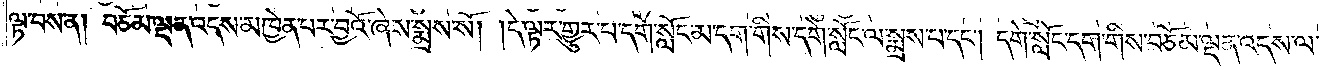ལྟ་བས་ན། བཅོམ་ལྡན་འདས་མཁྱེན་པར་བྱའོ་ཞེས་སྨྲས་སོ། །དེ་ལྟར་གྱུར་པ་དགེ་སློང་མ་དག་གིས་དགེ་སློང་ལ་སྨྲས་པ་དང༌། དགེ་སློང་དག་གིས་བཅོམ་ལྡན་འདས་ལ་
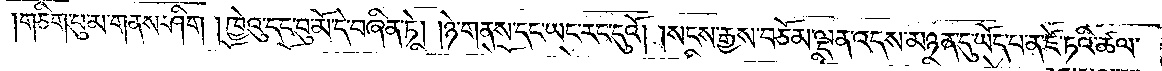།གཅིག་པུ་མ་གནས་ཤིག །ཁྱེའུ་དང་བུ་མོ་དེ་བཞིན་ཏེ། །ཉེ་གནས་དང་ཡང་རང་དུའོ། །སངས་རྒྱས་བཅོམ་ལྡན་འདས་མཉན་དུ་ཡོད་པ་ན་ཛེ་ཏའི་ཚལ་
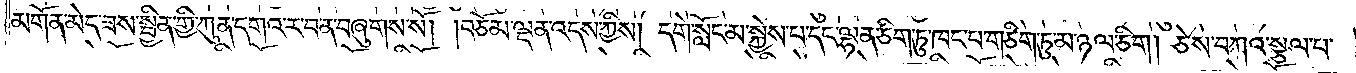མགོན་མེད་ཟས་སྦྱིན་གྱི་ཀུན་དགའ་ར་བ་ན་བཞུགས་སོ། །བཅོམ་ལྡན་འདས་ཀྱིས། དགེ་སློང་མ་སྐྱེས་པ་དང་ལྷན་ཅིག་ཏུ་ཁང་པ་གཅིག་ཏུ་མ་ཉལ་ཅིག། ཅེས་བཀའ་སྩལ་པ་
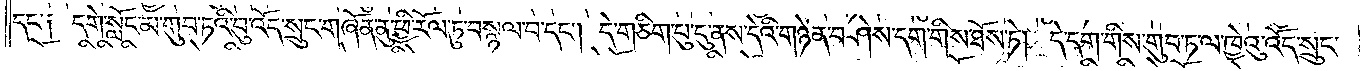དང༌། དགེ་སློང་མ་གུབ་ཏའི་བུ་འོད་སྲུང་གཞོན་ནུ་ཕྱི་རོལ་ཏུ་བསྙལ་བ་དང༌། དེ་གཅིག་པུ་ངུ་ནས་དེའི་གཉེན་བཤེས་དག་གིས་ཐོས་ཏེ། དེ་དག་གིས་གུབ་ཏ་ལ་ཁྱེའུ་འོད་སྲུང་
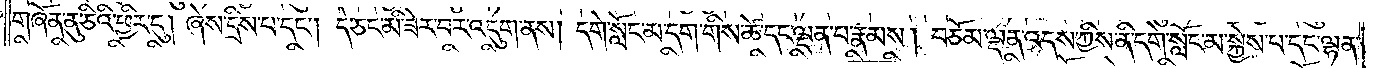གཞོན་ནུ་ཅིའི་ཕྱིར་དུ། ཞེས་དྲིས་པ་དང༌། དེ་ཅང་མི་ཟེར་བར་འདུག་ནས། དགེ་སློང་མ་དག་གིས་ཚེ་དང་ལྡན་པ་རྣམས། བཅོམ་ལྡན་འདས་ཀྱིས་ནི་དགེ་སློང་མ་སྐྱེས་པ་དང་ལྷན་
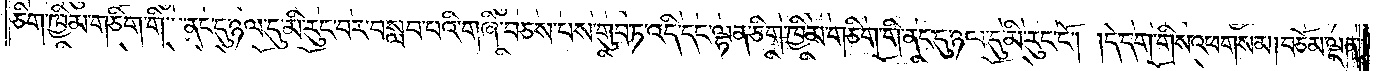ཅིག་ཁྱིམ་གཅིག་གི་ནང་དུ་ཉལ་དུ་མི་རུང་བར་བསླབ་པའི་གཞི་བཅས་པས་གུབ་ཏ་འདི་དང་ལྷན་ཅིག་ཁྱིམ་གཅིག་གི་ནང་དུ་ཉལ་དུ་མི་རུང་ངོ༌། །དེ་དག་གིས་འཕགས་མ། བཅོམ་ལྡན་
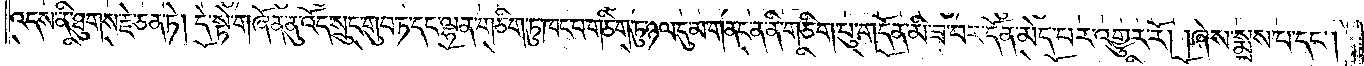འདས་ནི་ཐུགས་རྗེ་ཅན་ཏེ། དེ་སྟེ་གཞོན་ནུ་འོད་སྲུང་གུབ་ཏ་དང་ལྷན་ཅིག་ཏུ་ཁང་པ་གཅིག་ཏུ་ཉལ་དུ་མ་གནང་ན་ནི་གཅིག་པུ་གདོན་མི་ཟ་བར་དོན་མེད་པར་འགྱུར་རོ། །ཞེས་སྨྲས་པ་དང༌།
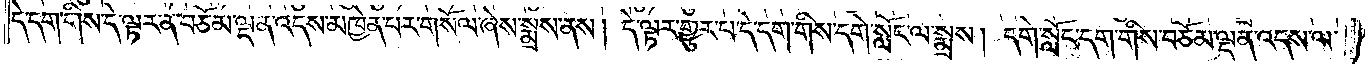དེ་དག་གིས་དེ་ལྟར་ན་བཅོམ་ལྡན་འདས་མཁྱེན་པར་གསོལ་ཞེས་སྨྲས་ནས། དེ་ལྟར་གྱུར་པ་དེ་དག་གིས་དགེ་སློང་ལ་སྨྲས། དགེ་སློང་དག་གིས་བཅོམ་ལྡན་འདས་ལ་
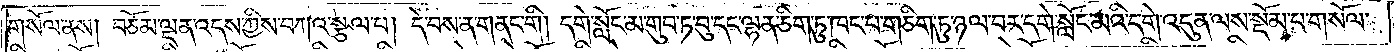གསོལ་ནས། བཅོམ་ལྡན་འདས་ཀྱིས་བཀའ་སྩལ་པ། དེ་བས་ན་གནང་གི། དགེ་སློང་མ་གུབ་ཏ་བུ་དང་ལྷན་ཅིག་ཏུ་ཁང་པ་གཅིག་ཏུ་ཉལ་བར་དགེ་སློང་མའི་དགེ་འདུན་ལས་སྡོམ་པ་གསོལ་
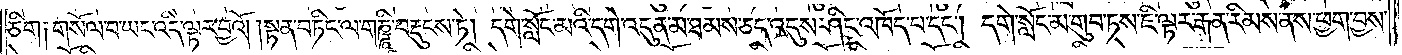ཅིག །གསོལ་བ་ཡང་འདི་ལྟར་བྱའོ། །སྟན་བཏིང་ལ་གཎྜའི་བརྡུངས་ཏེ། དགེ་སློང་མའི་དགེ་འདུན་མ་ཐམས་ཅད་འདུས་ཤིང་འཁོད་པ་དང༌། དགེ་སློང་མ་གུབ་ཏས་ཇི་ལྟར་རྒན་རིམས་ནས་ཕྱག་བྱས་
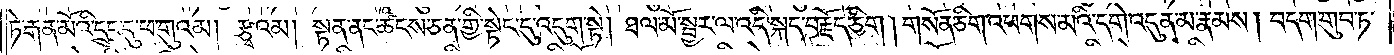ཏེ་རྒན་མོའི་དྲུང་དུ་ཕ་གུའམ། རྩྭའམ། སྟན་ནང་ཚངས་ཅན་གྱི་སྟེན་དུ་འདུག་སྟེ། ཐལ་མོ་སྦྱར་ལ་འདི་སྐད་བརྗོད་ཅིག། གསོན་ཅིག་འཕགས་མའི་དགེ་འདུན་མ་རྣམས། བདག་གུབ་ཏ་
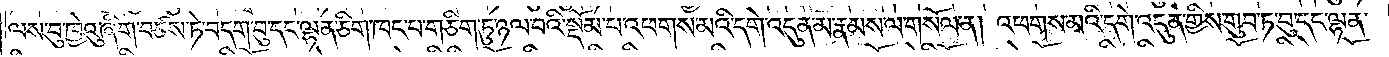ལས་བུ་ཁྱེའུ་ཞིག་བཙས་ཏེ་བདག་བུ་དང་ལྷན་ཅིག་ཁང་པ་གཅིག་ཏུ་ཉལ་བའི་སྡོམ་པ་འཕགས་མའི་དགེ་འདུན་མ་རྣམས་ལ་གསོལ་ན། འཕགས་མའི་དགེ་འདུན་གྱིས་གུབ་ཏ་བུ་དང་ལྷན་
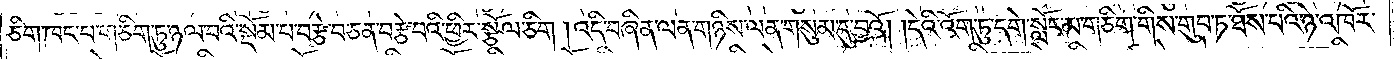ཅིག་ཁང་པ་གཅིག་ཏུ་ཉལ་བའི་སྡོམ་པ་བརྩེ་བ་ཅན་བརྩེ་བའི་ཕྱིར་སྩོལ་ཅིག །འདི་བཞིན་ལན་གཉིས་ལན་གསུམ་དུ་བྱའོ། །དེའི་འོག་ཏུ་དགེ་སློང་མ་གཅིག་གིས་གུབ་ཏ་ཐོས་པའི་ཉེ་འཁོར་
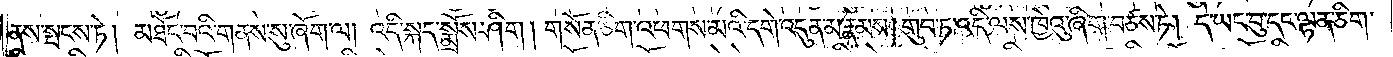ནས་སྤངས་ཏེ། མཐོང་བའི་གནས་སུ་ཞོག་ལ། འདི་སྐད་སྨྲོས་ཤིག །གསོན་ཅིག་འཕགས་མའི་དགེ་འདུན་མ་རྣམས། གུབ་ཏ་འདི་ལས་ཁྱེའུ་ཞིག་བཙས་ཏེ། དེ་ཡང་བུ་དང་ལྷན་ཅིག་
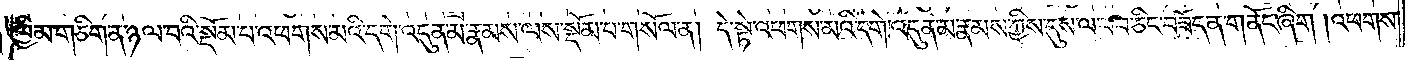ཁྱིམ་གཅིག་ན་ཉལ་བའི་སྡོམ་པ་འཕགས་མའི་དགེ་འདུན་མ་རྣམས་ལས་སྡོམ་པ་གསོལ་ན། དེ་སྟེ་འཕགས་མའི་དགེ་འདུན་མ་རྣམས་ཀྱིས་དུས་ལ་བབ་ཅིང་བཟོད་ན་གནོང་ཞིག །འཕགས་
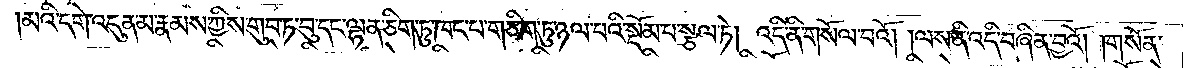མའི་དགེ་འདུན་མ་རྣམས་ཀྱིས་གུབ་ཏ་བུ་དང་ལྷན་ཅིག་ཏུ་ཁང་པ་གཅིག་ཏུ་ཉལ་བའི་སྡོམ་པ་སྩལ་ཏེ། འདི་ནི་གསོལ་བའོ། །ལས་ནི་འདི་བཞིན་བྱའོ། །གསོན་
